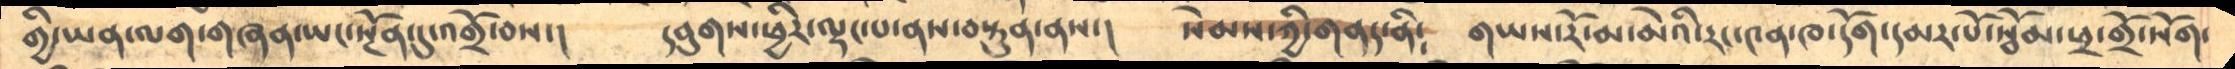གྱི་ཡན་ལག་གཞན་ཡང་སྔོན་དུ་འགྲོ་བས་།    དབུགས་ཕྱིར་ལྡང་པ་ནས་བསྟུན་ནས་།   སེམས་ཀྱི་གནད་ནི༴  གཡས་རོ་མ་མེའི་རང་༤ན་ཁ་དོག་དམར་པོ་སྦོམ་ཕྲ་གྲོ་སོག་
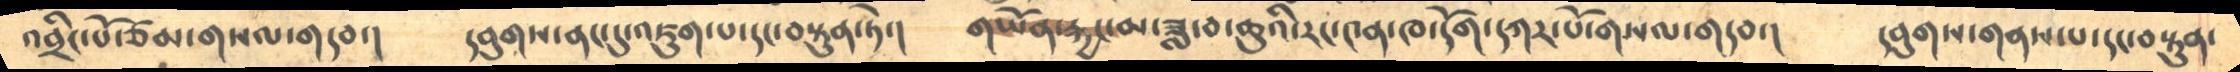འབྲིང་པོ་ཙམ་གསལ་གདབ་།    དབུགས་ནང་དུ་འཇུག་པ་དང་བསྟུན་ཏེ་།     གཡོན་རྐྱང་མ་ཟླ་བ་ཆུའི་རང་༤ན་ཁ་དོག་དཀར་པོ་གསལ་གདབ་།      དབུགས་གནས་པ་དང་བསྟུན་
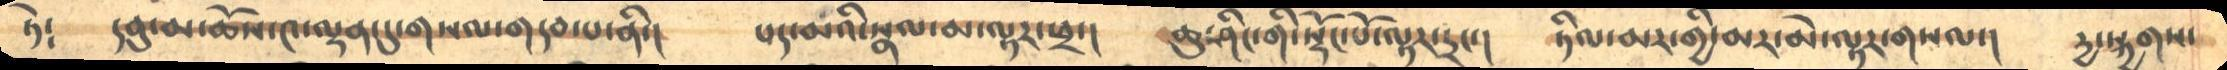ཏེ༴     དབུ་མ་ཆོས་༤་ལྷན་དུ་གསལ་གདབ་པ་ནི་།    པད་མའི་སྣལ་མ་ལྟར་ཕྲ་།     ཆུ་ཤིང་གི་སྡོང་པོ་ལྟར་དྲང་།     ཏིལ་མར་གྱི་མར་མེ་ལྟར་གསལ་།    དྱ་སྐྱགས་
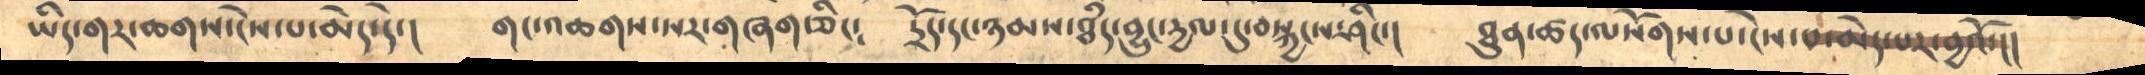ཡིད་གར་ཆགས་ངེས་པ་མེད་དེ་།    གང་འཆགས་སར་གཞག་ཅིང༴    དྲོད་དང་ཉམས་ཐཾད་བྱུང་དྱལ་དུ་བསྐྱངས་ཤིང་།    ཐུན་ཚད་ལསོགས་པ་ངེས་པ་མེད་པར་བྱའོ་།།
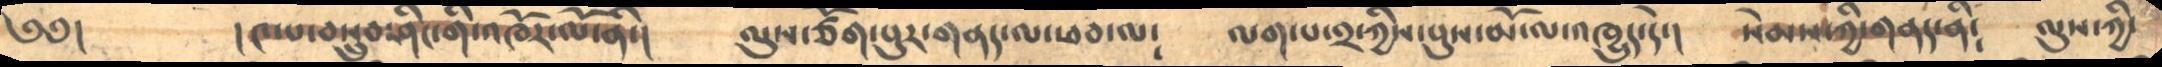༄༅།       །༤་པ་བསྲུབ་ཤིང་གི་འཁོར་ལོ་ནི་།      ལུས་ཙོག་པུར་གནད་ལ་ཕབ་ལ༴    ལག་པ་༢་ཀྱིས་པུས་མོ་ལ་འཁྱུད་དེ་།    སེམས་ཀྱི་གནད་ནི༴   ལུས་ཀྱི་
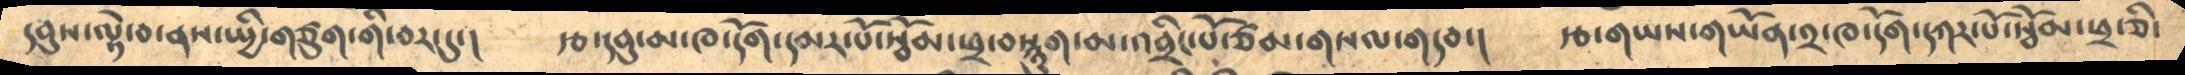དབུས་ལྟེ་བ་ནས་སྤྱི་གཙུག་གི་བར་དུ་།    རྩ་དབུ་མ་ཁ་དོག་དམར་པོ་སྦོམ་ཕྲ་བསྙུག་མ་འབྲིང་པོ་ཙམ་གསལ་གདབ་།    རྩ་གཡས་གཡོན་༢་ཁ་དོག་དཀར་པོ་སྦོམ་ཕྲ་ཅི་
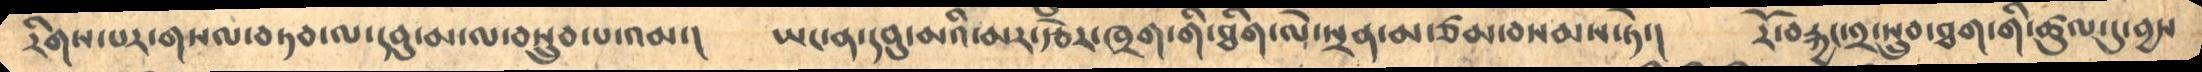རིགས་པར་གསལ་བཏབ་ལ་དབུ་མ་ལ་བསྲུབ་པ་འམ་།     ཡང་ན་དབུ་མའི་མར་རྩེར་ཁྲག་གི་ཐིག་ལེ་སྲན་མ་ཙམ་བསམས་ཏེ་།    རོ་བརྐྱང་༢་སྲུབ་ཐག་གི་ཚུལ་དུ་བྱས
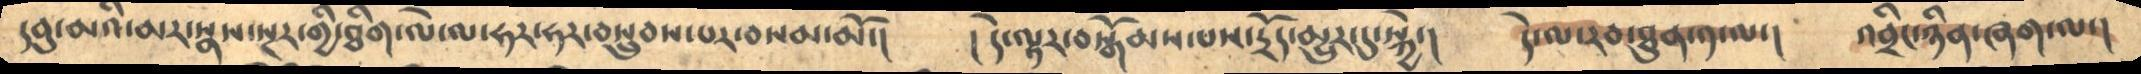དབུ་མའི་མར་སྣས་སྔར་གྱི་ཐིག་ལེ་ལ་ཧར་ཧར་བསྲུབས་པར་བསམ་མོ་།    །དེ་ལྟར་བསྒོམས་པས་དྲོད་མྱུར་དུ་སྐྱེ་།     དེ་ལ་རབ་ཐུན་༡་ལ་།    འབྲིང་ཉིན་ཞག་ལ་།
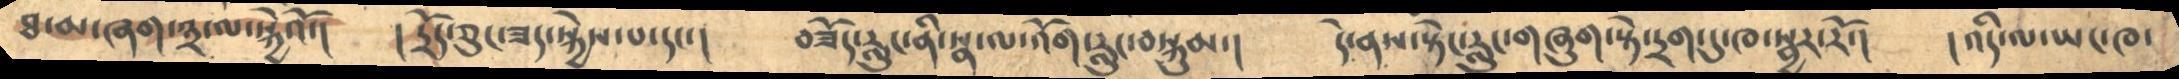ཐ་མ་ཞག་༣་ལ་སྐྱེའོ་།      །དྲོད་ཅུང་ཟད་སྐྱེས་པ་དང་།    བཟོད་རླུང་ནི་སྣ་ལ་འོག་རླུང་བསྐུམ་།    དེ་ནས་སྟེང་རླུང་གཞུག་སྟེ་དྲག་དུ་ཁ་སྦྱར་རོ་།    །འདི་ལ་ཡང་ཁ་
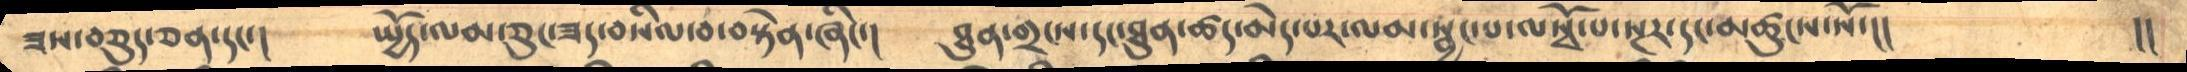ཟས་བཅུད་ཅན་དང་།       སྤྱོད་ལམ་ཅུང་ཟད་བསིལ་བ་བསྟེན་ཞིང་།    ཐུན་གྲངས་དང་ཐུན་ཚད་མེད་པར་ལམ་སྦྱང་པ་ལསྭོ་པ་སྔར་དང་མཚུངས་སོ་།།      །།
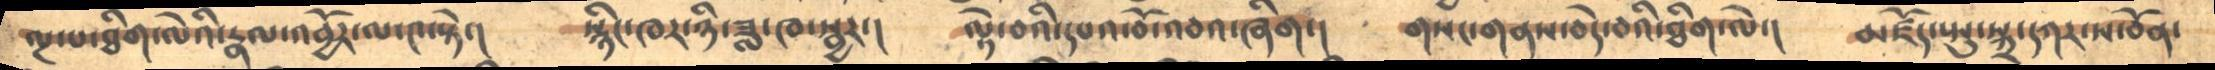ལྔ་པ་ཐིག་ལེའི་རྣལ་འབྱོར་ལ་༤་སྟེ་།      སྙིང་ཁར་ཉི་ཟླ་ཁ་སྦྱར་།     ལྟེ་བའི་དཔའ་བོ་འབའ་ཞིག་།    གསང་གནས་བདེ་བའི་ཐིག་ལེ་།    མཛོད་སྤུ་སྐྲ་དཀར་ས་བོན་
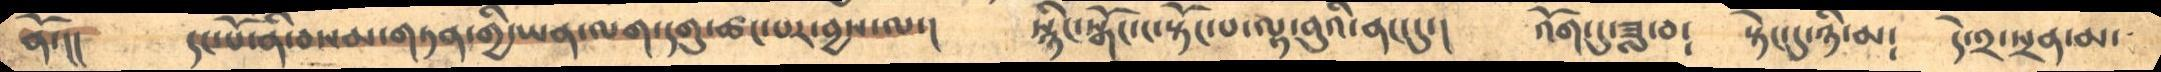ནོ་།།        དང་པོ་ནི་བསམ་གཏན་གྱི་ཡན་ལག་དགུ་ཚང་བར་བྱས་ལ་།      སྙིང་སྒོང་ང་སྟོང་པ་ལྟ་བུའི་ནང་དུ་།    འོག་དུ་ཟླ་བ༴     སྟེང་དུ་ཉི་མ༴    དེ་༢་སྲན་མ་
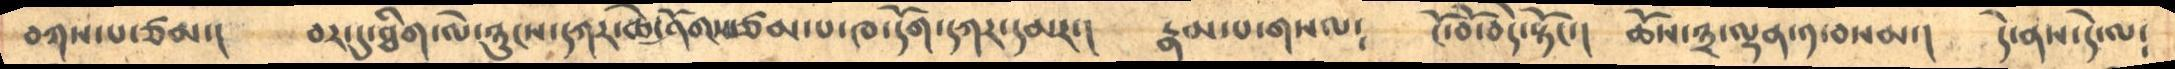བཀས་པ་ཙམ་།       བར་དུ་ཐིག་ལེ་ཉུངས་དཀར་ཆེ་ཤོགས་ཙམ་པ་ཁ་དོག་དཀར་དམར་།    རྣམ་པ་གསལ༴     ངོ་བོ་བདེ་སྟོང་།     ཆོས་༣་ལྷན་༡་བསམ་།     དེ་ནས་དེ་ལ༴
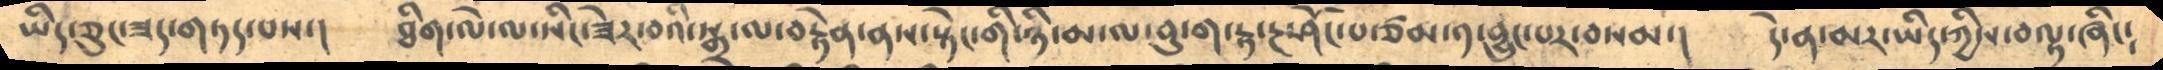ཡིད་ཅུང་ཟད་གཏད་པས་།     ཐིག་ལེ་ལ་སིང་ཟེར་བའི་སྒྲ་ལ་བརྟེན་ནས་སྟེང་གི་ཉི་མ་ལ་བུ་ག་རྟ་རྔ་ཤོང་པ་ཙམ་༡་བྱུང་བར་བསམ་།     དེ་ན་མར་ཡིད་ཀྱིས་བལྟ་ཞིང༴
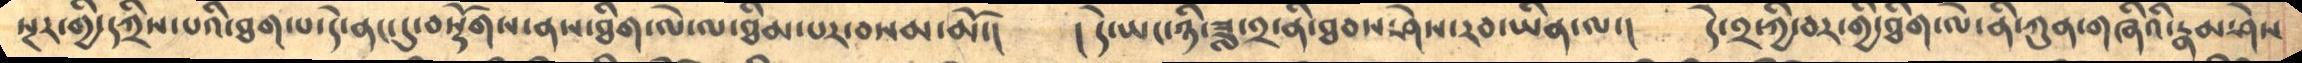སྔར་གྱི་དཀྲིས་པའི་ཐག་པ་དེ་ནང་དུ་བསྡོགས་ནས་ཐིག་ལེ་ལ་ཐིམ་པར་བསམ་མོ་།    །དེ་ཡང་ཉི་ཟླ་༢་ནི་ཐབས་ཤེས་རབ་ཡིན་ལ་།      དེ་༢་ཀྱི་བར་གྱི་ཐིག་ལེ་ནི་ཀུན་གཞིའི་རྣམ་ཤེས
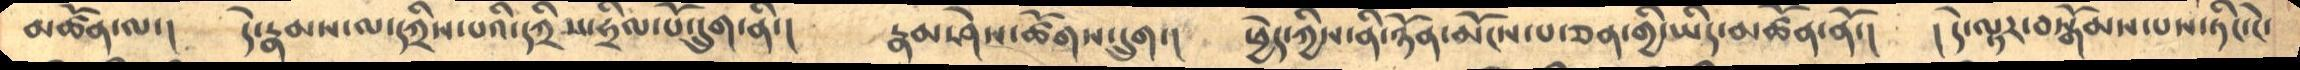མཚོན་ལ་།     དེ་རྣམས་ལ་དཀྲིས་པའི་དཀྲིས་ཧྲིལ་པོ་དྲུག་ནི་།       རྣམ་ཤེས་ཚོགས་དྲུག་།      ཕྱེད་ཀྱིས་ནི་ཉོན་མོངས་པ་ཅན་གྱི་ཡིད་མཚོན་ནོ་།     ། དེ་ལྟར་བསྒོམས་པས་ཏིང་ངེ་
